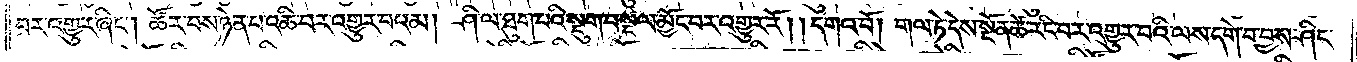བར་འགྱུར་ཞིང༌། ཚོར་བས་ཉེན་པ་འཆི་བར་འགྱུར་བའམ། ཤི་ལ་ཐུག་པའི་སྡུག་བསྔལ་མྱོང་བར་འགྱུར་རོ། དགའ་བོ། གལ་ཏེ་དེས་སྔོན་ཚེ་རིང་བར་འགྱུར་བའི་ལས་དགེ་བ་བྱས་ཤིང་
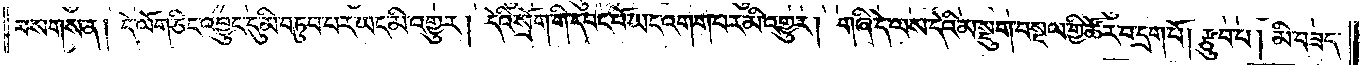བསགས་ན། དེ་ལོག་ཅིང་འབྱུང་དུ་མི་བཏུབ་པར་ཡང་མི་འགྱུར། དེའི་སྲོག་གི་དབང་པོ་ཡང་འགག་པར་མི་འགྱུར། གཞི་དེ་ལས་དེའི་མ་སྡུག་བསྔལ་གྱི་ཚོར་བ་དྲག་པོ། རྩུབ་པ། མི་བཟད་
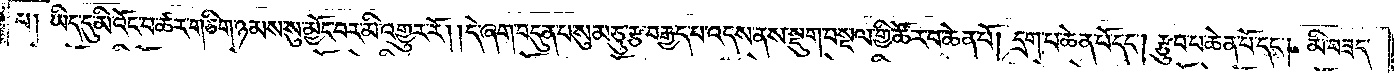པ། ཡིད་དུ་མི་འོང་བ་ཚར་གཅིག་ཉམས་སུ་མྱོང་བར་མི་འགྱུར་རོ། །དེ་ཞག་བདུན་པ་སུམ་ཅུ་རྩ་བརྒྱད་པ་འདས་ནས་སྡུག་བསྔལ་གྱི་ཚོར་བ་ཆེན་པོ། དྲག་པ་ཆེན་པོ་དང༌། རྩུབ་པ་ཆེན་པོ་དང༌། མི་བཟད་
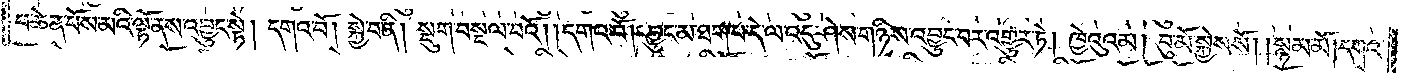པ་ཆེན་པོས་མའི་ལྟོ་ནས་འབྱུང་སྟེ། དགའ་བོ། སྐྱེ་བ་ནི། སྡུག་བསྔལ་བའོ། །དགའ་བོ། །བྱུང་མ་ཐག་པ་དེ་ལ་འདུ་ཤེས་གཉིས་འབྱུང་བར་འགྱུར་ཏེ། ཁྱེའུའམ། བུ་མོ་སྐྱེས་སོ། །སྙམ་མོ། །དགའ་
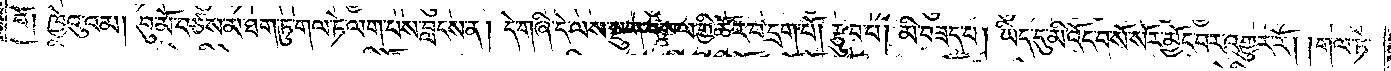བོ། ཁྱེའུའམ། བུ་མོ་བཙས་མ་ཐག་ཏུ་གལ་ཏེ་ལག་པས་བླངས་ན། དེ་གཞི་དེ་ལས་སྡུག་བསྔལ་གྱི་ཚོར་བ་དྲག་པོ། རྩུབ་པ། མི་བཟད་པ། ཡིད་དུ་མི་འོང་བ་སོ་སོར་མྱོང་བར་འགྱུར་རོ། །གལ་ཏེ་
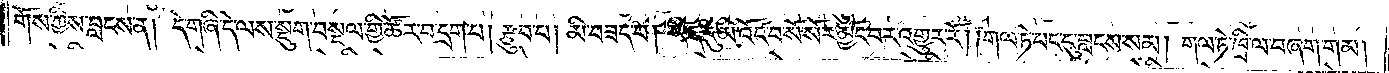གོས་ཀྱིས་བླངས་ན། དེ་གཞི་དེ་ལས་སྡུག་བསྔལ་གྱི་ཚོར་བ་དྲག་པ། རྩུབ་པ། མི་བཟད་པ། ཡིད་དུ་མི་འོང་བ་སོ་སོར་མྱོང་བར་འགྱུར་རོ། །གལ་ཏེ་པང་དུ་བླངས་སམ། གལ་ཏེ་ཁྲི་ལ་བཞག་གམ།
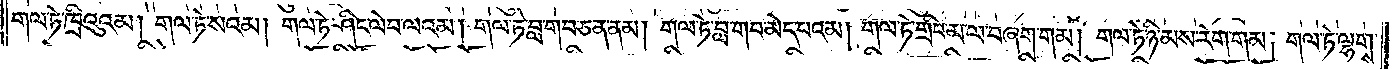གལ་ཏེ་ཁྲིའུའམ། གལ་ཏེ་སའམ། གལ་ཏེ་ཤིང་ལེབ་ལའམ། གལ་ཏེ་བླ་གབ་ཅན་ནམ། གལ་ཏེ་བླ་གབ་མེད་པའམ། གལ་ཏེ་གྲིབ་མ་ལ་བཞག་གམ། གལ་ཏེ་ཉི་མས་རེག་གམ། གལ་ཏེ་ལྷགས་
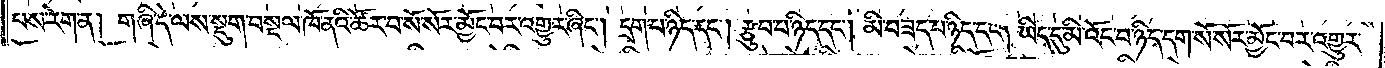པས་རེག་ན། གཞི་དེ་ལས་སྡུག་བསྔལ་ཁོ་ནའི་ཚོར་བ་སོ་སོར་མྱོང་བར་འགྱུར་ཞིང༌། དྲག་པ་ཉིད་དང༌། རྩུབ་པ་ཉིད་དང༌། མི་བཟད་པ་ཉིད་དང༌། ཡིད་དུ་མི་འོང་བ་ཉིད་དག་སོ་སོར་མྱོང་བར་འགྱུར་
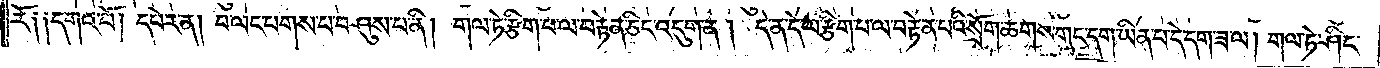རོ༑ ༑དགའ་བོ། དཔེར་ན། བ་ལང་པགས་པ་བཤུས་པ་ནི། གལ་ཏེ་རྩིག་པ་ལ་བརྟེན་ཅིང་འདུག་ན། དེ་ན་དེ་ལ་རྩིག་པ་ལ་བརྟེན་པའི་སྲོག་ཆགས་གང་དག་ཡིན་པ་དེ་དག་ཟ་ལ། གལ་ཏེ་ཤིང་
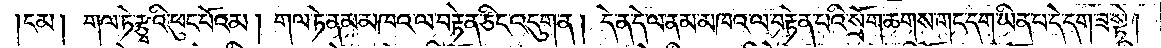ངམ། གལ་ཏེ་རྩྭའི་ཕུང་པོའམ། གལ་ཏེ་ནམ་མཁའ་ལ་བརྟེན་ཅིང་འདུག་ན། དེ་ན་དེ་ལ་ནམ་མཁའ་ལ་བརྟེན་པའི་སྲོག་ཆགས་གང་དག་ཡིན་པ་དེ་དག་ཟ་སྟེ།
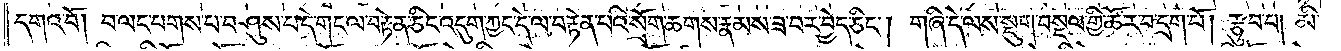དགའ་བོ། བ་ལང་པགས་པ་བཤུས་པ་དེ་གང་ལ་བརྟེན་ཅིང་འདུག་ཀྱང་དེ་ལ་བརྟེན་པའི་སྲོག་ཆགས་རྣམས་ཟ་བར་བྱེད་ཅིང༌། གཞི་དེ་ལས་སྡུག་བསྔལ་གྱི་ཚོར་བ་དྲག་པོ། རྩུབ་པ། མི་
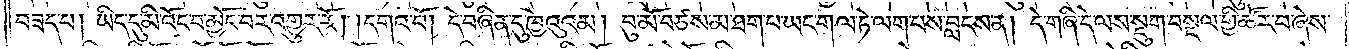བཟད་པ། ཡིད་དུ་མི་འོང་བ་མྱོང་བར་འགྱུར་རོ། །དགའ་བོ། དེ་བཞིན་དུ་ཁྱེའུའམ། བུ་མོ་བཙས་མ་ཐག་པ་ཡང་གལ་ཏེ་ལག་པས་བླངས་ན། དེ་གཞི་དེ་ལས་སྡུག་བསྔལ་གྱི་ཚོར་བ་ཞེས་
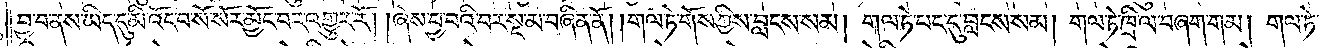བྱ་བ་ནས་ཡིད་དུ་མི་འོང་བ་སོ་སོར་མྱོང་བར་འགྱུར་རོ། །ཞེས་བྱ་བའི་བར་སྔ་མ་བཞིན་ནོ། །གལ་ཏེ་གོས་ཀྱིས་བླངས་སམ། གལ་ཏེ་པང་དུ་བླངས་སམ། གལ་ཏེ་ཁྲི་ལ་བཞག་གམ། གལ་ཏེ་
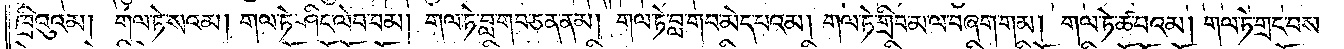ཁྲིའུའམ། གལ་ཏེ་སའམ། གལ་ཏེ་ཤིང་ལེབ་བམ། གལ་ཏེ་བླ་གབ་ཅན་ནམ། གལ་ཏེ་བླ་གབ་མེད་པའམ། གལ་ཏེ་གྲིབ་མ་ལ་བཞག་གམ། གལ་ཏེ་ཚ་བའམ། གལ་ཏེ་གྲང་བས་
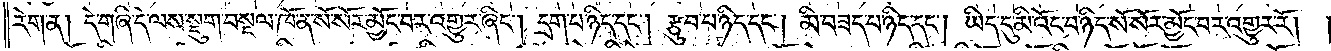རེག་ན། དེ་གཞི་དེ་ལས་སྡུག་བསྔལ་ཁོ་ན་སོ་སོར་མྱོང་བར་འགྱུར་ཞིང༌། དྲག་པ་ཉིད་དང༌། རྩུབ་པ་ཉིད་དང༌། མི་བཟད་པ་ཉིད་དང༌། ཡིད་དུ་མི་འོང་བ་ཉིད་སོ་སོར་མྱོང་བར་འགྱུར་རོ། །
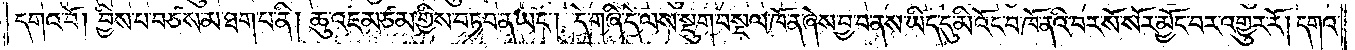དགའ་བོ། བྱིས་པ་བཙས་མ་ཐག་པ་ནི། ཆུ་འཇམ་ཙམ་གྱིས་བཏབ་ན་ཡང༌། དེ་གཞི་དེ་ལས་སྡུག་བསྔལ་ཁོ་ན་ཞེས་བྱ་བ་ནས་ཡིད་དུ་མི་འོང་བ་ཁོ་ནའི་བར་སོ་སོར་མྱོང་བར་འགྱུར་རོ། །དགའ་
